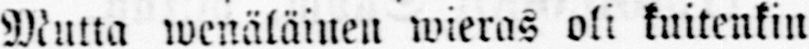Mutta wenäläinen wieras oli kuitenkin
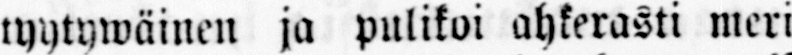tyytywäinen ja pulikoi ahkerasti meri-
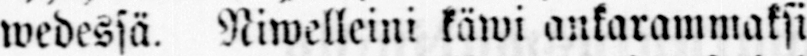wedessä. Niwelleini käwi ankarammaksi
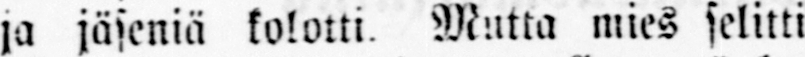ja jäseniä kolotti. Mutta mies selitti
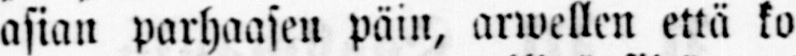asian parhaasen päin, arwellen että ko-
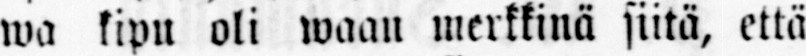wa kipu oli waan merkkinä siitä, että
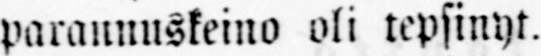parannuskeino oli tepsinyt.
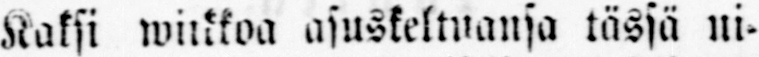Kaksi wiikkoa asuskeltuansa tässä ni-
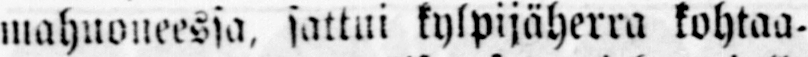mahuoneessa, sattui kylpijäherra kohtaa-
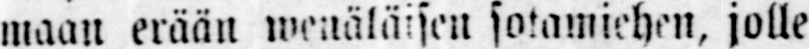maan erään wenäläisen sotamiehen, jolle
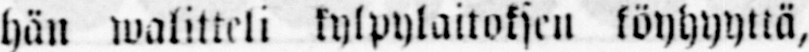hän walitteli kylpylaitoksen köyhyyttä,
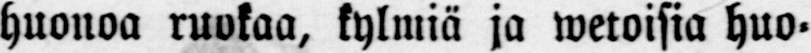huonoa ruokaa, kylmiä ja wetoisia huo-
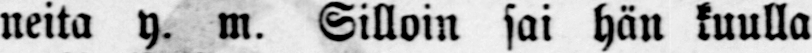neita y. m. Silloin sai hän kuulla
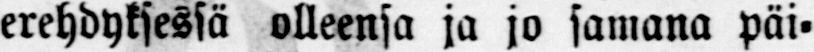erehdyksessä olleensa ja jo samana päi-
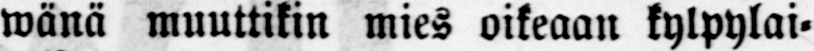wänä muuttikin mies oikeaan kylpylai-
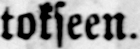tokseen.
